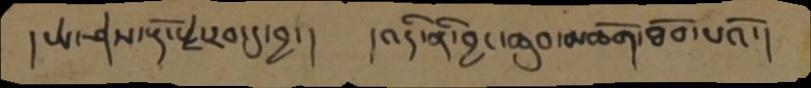།ཡེ་ཤེས་རྡོ་རྗེ་རབ་དུ་བྱ་།        །འདི་ནི་བྱང་ཆུབ་མཆོག་ཐོབ་པའོ་།
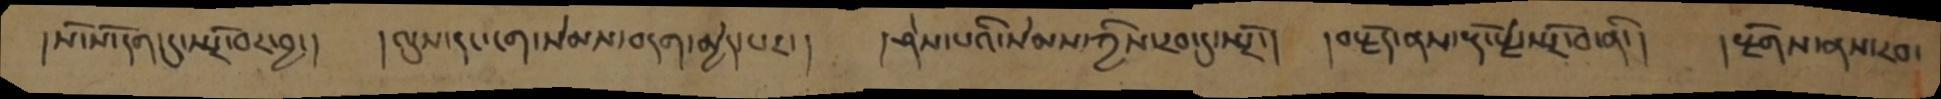།སོ་སོ་དག་དུ་སྤྲོ་བར་བྱ་།   །ལུས་དང་ངག་སེམས་བདག་མྱེད་པར་།     །ཤེས་པའི་སེམས་ཀྱིས་རབ་དུ་སྤྲོ་།   །བརྗེད་ནས་རྡོ་རྗེ་སྤྲོ་བ་ནི་།    །རྫོགས་ནས་རབ་
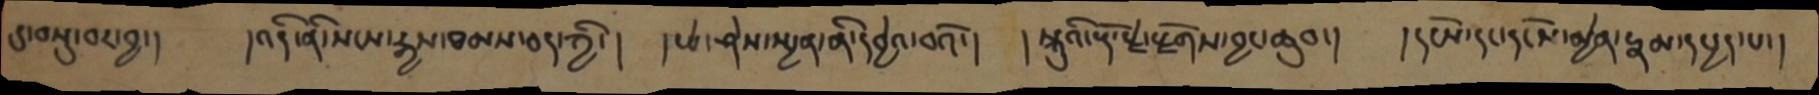དུ་བསྡུ་བར་བྱ་།    །འདི་ནི་སངས་རྒྱས་ཐམས་ཅད་ཀྱི་།   །ཡེ་ཤེས་སྤྱན་ནི་དབྱེའ་བའོ་།   །སྐུའི་རྡོ་རྗེ་རྫོགས་བྱང་ཆུབ་།   །དངོས་དང་དངོས་མྱེན་རྣམ་དཔྱད་པ་།
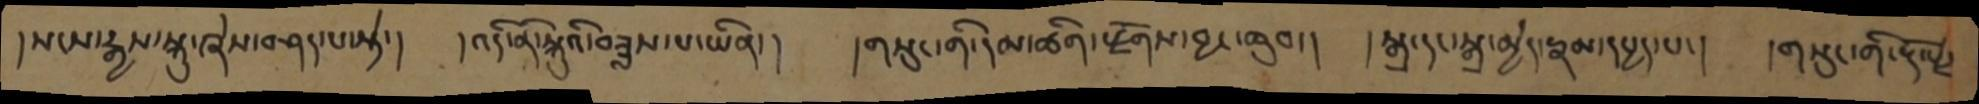།སངས་རྒྱས་སྐུ་ཞེས་བཤད་པ་སྟེ་།    །འདི་ནི་སྐུའི་བཟླས་པ་ཡིན་།    །གསུང་གི་དམ་ཚིག་རྫོགས་བྱང་ཆུབ་།      །སྒྲ་དང་སྒྲ་མྱེད་རྣམ་དཔྱད་པ་།    །གསུང་གི་རྡོ་རྗེ་
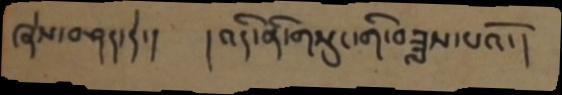ཞེས་བཤད་དེ་།  །འདི་ནི་གསུང་གི་བཟླས་པའོ་།
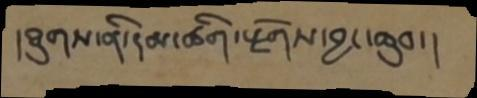།ཐུགས་ནི་དམ་ཚིག་རྫོགས་བྱང་ཆུབ་།
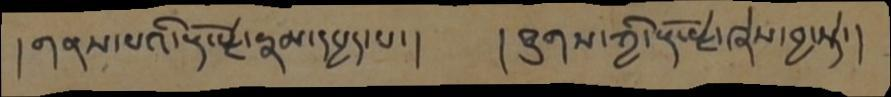།གནས་པའི་རྡོ་རྗེ་རྣམ་དཔྱད་པ་།  །ཐུགས་ཀྱི་རྡོ་རྗེ་ཞེས་བྱ་སྟེ་།
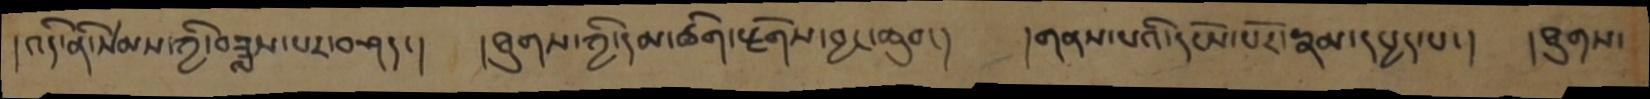།འདི་ནི་སེམས་ཀྱི་བཟླས་པར་བཤད་།  །ཐུགས་ཀྱི་དམ་ཚིག་རྫོགས་བྱང་ཆུབ་།  །གནས་པའི་དངོས་པོར་རྣམ་དཔྱད་པ་།  །ཐུགས་
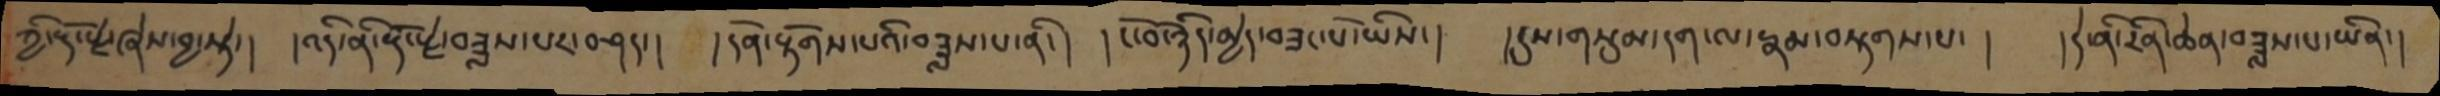ཀྱི་རྡོ་རྗེ་ཞེས་བྱ་སྟེ་།  །འདི་ནི་རྡོ་རྗེ་བཟླས་པར་བཤད་།  །དོན་རྟོགས་པའི་བཟླས་པ་ནི་།  །ངོ་བོ་ཉིད་མྱེད་བཟང་པོ་ཡིས་།  །དུས་གསུམ་དག་ལ་རྣམ་བརྟགས་པ་།  །དེ་ནི་རིན་ཆེན་བཟླས་པ་ཡིན་།
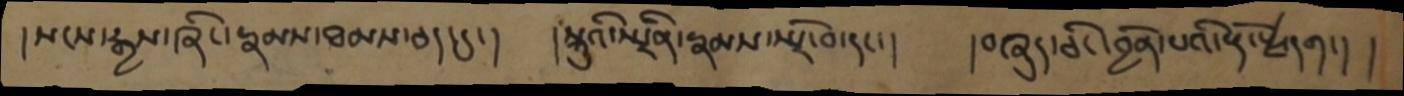།སངས་རྒྱས་ཞིང་རྣམས་ཐམས་ཅད་དུ་།    །སྐུའི་སྤྲིན་རྣམས་སྤྲོ་བ་དང་།   །བཞུད་ཅིང་བྱོན་པའི་རྡོ་རྗེ་དག་། །
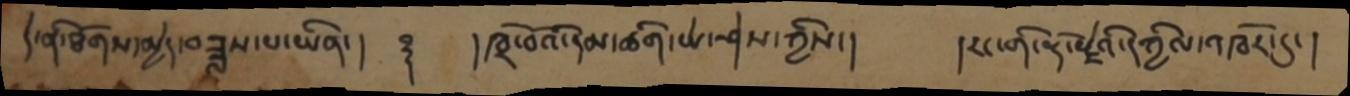དེ་ནི་ཐོགས་མྱེད་བཟླས་པ་ཡིན་།   ༈   །ཁྲ་བོའི་དམ་ཚིག་ཡེ་ཤེས་ཀྱིས་།    །རང་གི་རྡོ་རྗེའི་དཀྱིལ་འཁོར་དུ་།
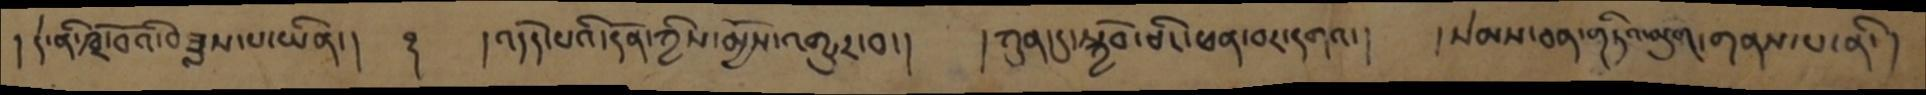།དེ་ནི་ཁྲོ་བོའི་བཟླས་པ་ཡིན་།   ༈   །འདོད་པའི་དོན་ཀྱིས་མྱོས་འགྱུར་བ་།   །ཀུན་དུ་སྐྱོབ་ཅིང་ཕན་བར་དགའ་།   །སེམས་ཅན་གཏི་མུག་གནས་པ་ནི་།
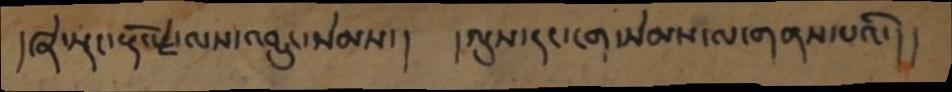།ཞེ་སྡང་རྡོ་རྗེ་ལས་འབྱུང་སེམས་།  །ལུས་དང་ངག་སེམས་ལ་གནས་པའི་། །
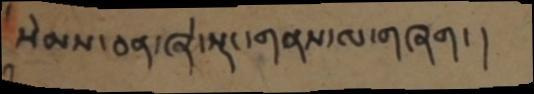སེམས་ཅན་ཞེ་སྡང་གནས་ལ་གཞག་།
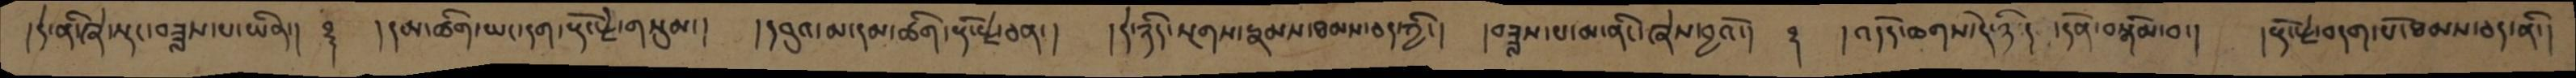།དེ་ནི་ཞེ་སྡང་བཟླས་པ་ཡིན་།  ༈  །དམ་ཚིག་ཡང་དག་རྡོ་རྗེ་གསུམ་།  །དབུའ་མ་དམ་ཚིག་རྡོ་རྗེ་ཅན་། །དེ་ཉིད་སྔགས་རྣམས་ཐམས་ཅད་ཀྱི་།  ༈ །བཟླས་པ་མ་ནིང་ཞེས་བྱའོ་།  ༈  །འདོད་ཆགས་དེ་ཉིད་དོན་བསྒོམ་བ་།  །རྡོ་རྗེ་བདག་པོ་ཐམས་ཅད་ནི་།
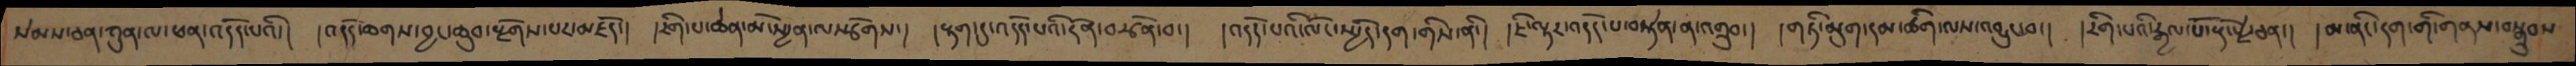སེམས་ཅན་ཀུན་ལ་ཕན་འདོད་པའི་།  །འདོད་ཆགས་བྱང་ཆུབ་རྫོགས་པར་མཛོད་།  །རིག་པ་ཆེན་མོ་སྤྱན་ལསྩོགས་།  །རྟག་ཏུ་འདོད་པའི་དོན་བརྩོན་བ་།  །འདོ་པའི་ལོངས་སྤྱོད་དག་གིས་ནི་།  །ཇི་ལྟར་འདོད་པ་བསྟེན་ན་འགྲུབ་།  །གཏི་མུག་དམ་ཚིག་ལས་འབྱུང་བ་།  །རིག་པའི་རྒྱལ་པོ་རྡོ་རྗེ་ཅན་།  །མ་ནིང་དག་གི་གནས་བསྒྲུབས་
